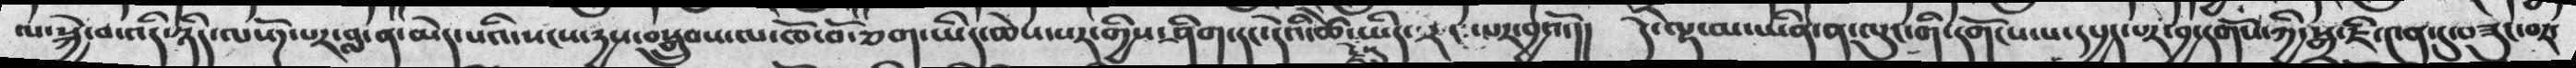ལ་སྐྱེ་བ་འདི་ཉིད་ལསོཌ་པར་བླ་ན་མེད་པའི་སངས་དྱས་བསྒྲུབས་ལ་ཁོ་བོ་ཅག་ཡིད་ཆེས་པར་གྱིས་ཤིག་དང་དེའི་ཚེ་རྗེསུ་ཡིད་རང་པར་བྱའོ་།།   དེ་ལྟ་མ་ཡིན་ན་ལུང་གི་དདགོངས་པ་དཔྱད་པར་བྱ་དགོས་ཀྱི་སྒྲ་ཇི་༩ན་དུ་བཟུང་བར་
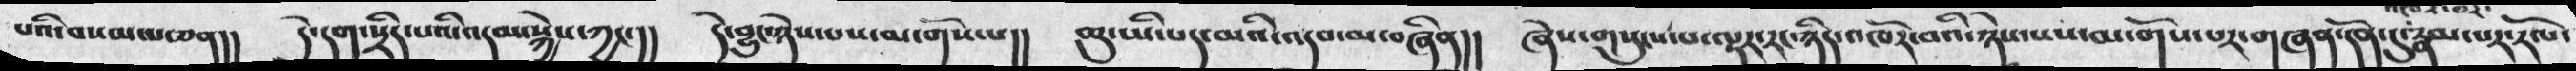པའི་བསམ་ཅན།།   དེ་དག་སྲིད་པའི་འདམ་སྐྱེས་ཀྱང་།།   དེ་བྱུང་ཉེས་པས་མ་གོས་པ།།   ཆུ་ཡི་པད་མའི་འདབ་མ་བཞིན།།  ཞེས་གསུངས་པ་ལྟར་རང་ཉིད་འཁོར་བའི་ཉེས་པས་མ་གོས་པར་གཞན་དོན་དུ་རྣམ་པར་རོལ་
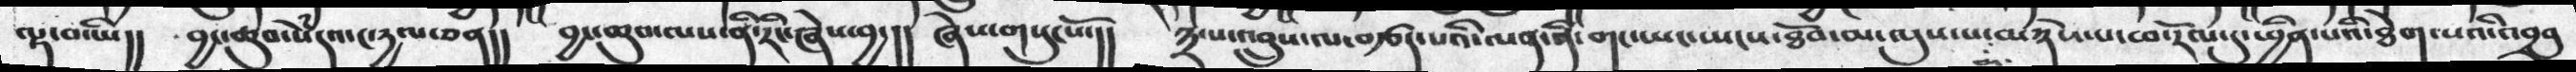ལྟ་བ་ཡི།།   བྱང་ཆུབ་སེཾདའ་ང་དྱལ་ཅན།།  བྱང་ཆུབ་ལས་ནི་རིང་ཞེས་བྱ་།།   ཞེས་གསུངསོ་།།  ༣པ་འབྲུས་ལ་བརྩད་པའི་ལན་ནི་གང་ཡང་སྤངས་ཐོབ་མ་ལུས་པ་མ་ཉེས་པ་ཕ་རོལ་དུ་ཕྱིན་པའི་ཐེག་པའི་འབྲབུ
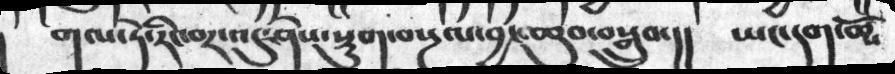གལ་ཏེ་རིང་བར་འདུ་ཤེས་སྡུག་བསྔལ་བྱང་ཆུབ་བསྒྲུབ་།།   ཡང་དག་ཆོས་
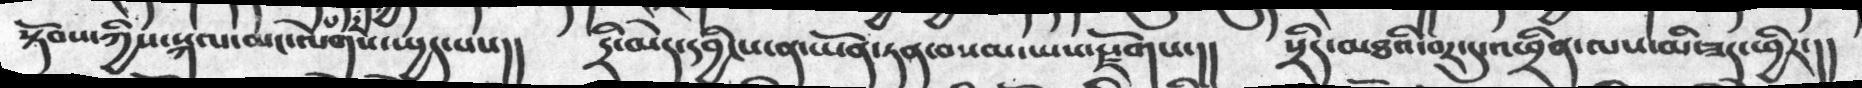སྟོབས་ཀྱིས་སྐལ་མང་ལེགས་སྤྱད་པས།།  དྲི་མེད་དབྱིངས་ན་ཡིན་རན་བསམ་ཡས་རྫོགས་།།  སྲིད་མཐའི་བར་དུ་འཕྲིན་ལས་མི་ཟད་ཕྱིར་།།
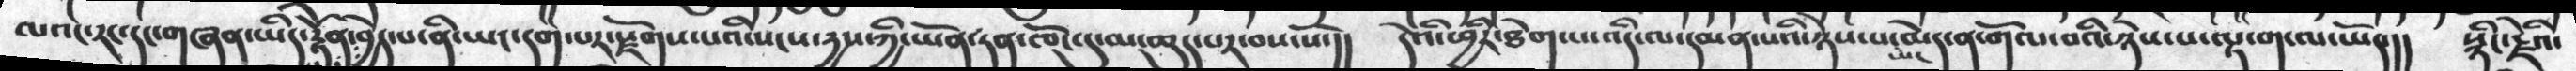ལའང་རང་གཞན་ཡིད་རྟོན་བྱེད་པ་ནི་ཡང་དག་པར་རྫོགས་པའི་སངས་རྱས་ཀྱི་ཡོན་རན་ཁོང་དུ་མ་ཆུད་པར་བས་སོ་།།  དེའི་ཕྱིར་ཐེག་པ་འདི་ལ་དམན་པའི་ཉེས་པ་ཡང་མེད་ན་གོལ་བའི་ཉེས་པ་ལྟ་གང་ལ་ཡོད་།།  སྙིང་རྗེའི་
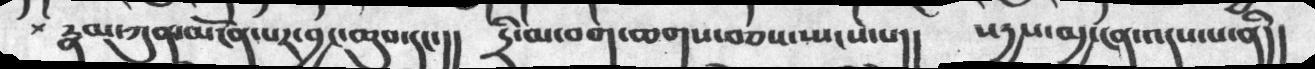+ རྣམ་ཀུན་མངོན་པར་བྱང་ཆུབ་དང་།།     དྲི་མ་བག་ཆགས་བཅས་སྤངས་པ།།   སདྱས་མྱ་ངན་འདས་པ་ནི།།
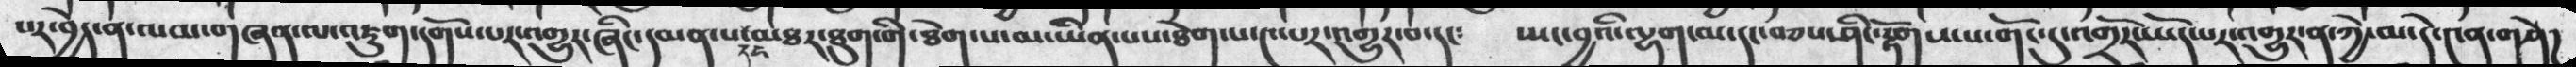པར་བྱེད་ན་ལམ་གཞན་ལ་འཇུག་དགོས་པར་འགྱུར་ཞིང་དམན་པ་དང་མཐར་ཐུག་གི་ཐེག་པ་མ་ཡིན་པས་ཐེག་པ་༤་པར་འགྱུར་བ་དང༴  ཡང་བྱའི་ལྷག་མ་དང་བཅས་ཤིང་རྟོགས་པ་གོང་དུ་འགྲོར་ཡོད་པར་འགྱུར་ན་ཀྱེ་མ་དེ་༤ན་གཤེད
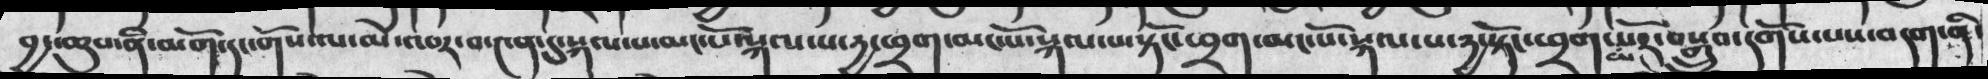བྱང་ཆུབ་ནི་མགོ་དང་གོས་ལ་མེ་འབར་བ་༤ན་དུ་སྐལ་པ་མང་པོ་སྐལ་པ་དྱ་ཕྲག་མང་པོ་སྐལ་པ་སྟོང་ཕྲག་མང་པོར་བསྒྲུབ་དགོས་པས་བདག་ནི་
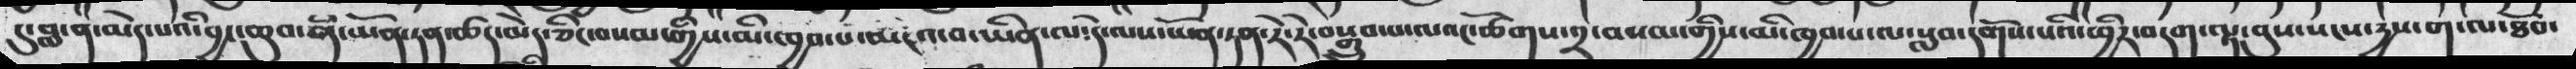དུ་བླ་ན་མེད་པའི་བྱང་ཆུབ་ནི་ཡོན་ཏན་ཚད་མེད་ཅིང་བསམ་གྱིས་མི་ཁྱབ་པ་མངའ་བ་ཡིན་ལ༴དེ་ལས་ཡོན་ཏན་རེ་རེ་བསྒྲུབ་པ་ལའང་ཚོགས་༢་བསམ་གྱིས་མིཁྱབ་པ་ལ་སླབ་དགོས་པའི་ཕྱིར་བདག་ལྟ་བུས་སངས་རྱས་ག་ལ་ཐོབ་
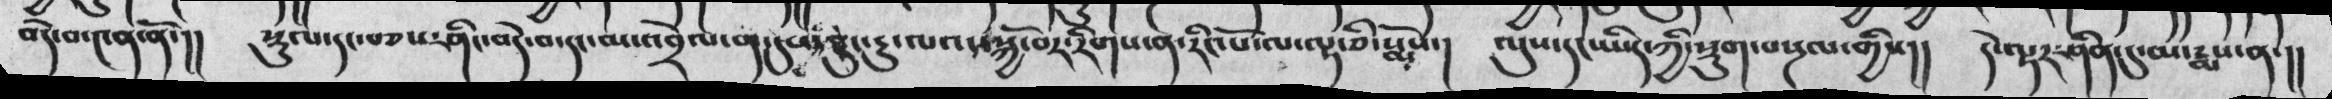བདེ་བ་༤ན་ནོ་།།   སྡུལ་དང་བཅས་ཤིང་བདེ་བ་དང་མ་འབྲེལ་ན་དུས་ཐུང་ངུ་ལའང་སྐྱ་བོར་རིགས་ན་རིང་པོ་ལ་ལྟ་ཅི་སྨོས་།   ལུས་དང་ཡིད་ཀྱི་སྡུག་བསྔལ་གྱིས།།  དེ་ལྟར་ཤིན་དུ་མ་རྨས་ན་།།
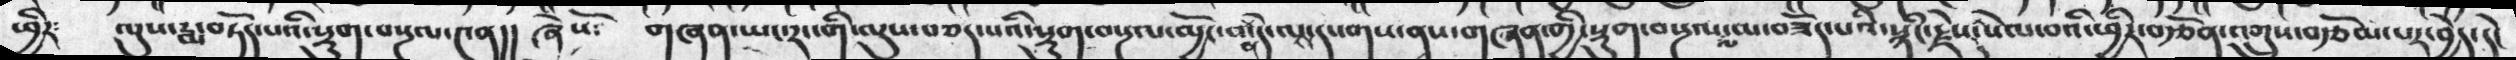ཕྱིར་    ལུས་རྨབཏོད་པའི་སྡུག་བསྔལ་༤ན།།  ཞེསོ༴   གཞན་ཡང་རང་གི་ལུས་བཅད་པའི་སྡུག་བསྔལ་མྱོང་པ་ན་དེ་ལ་དཔགས་ནས་གཞན་གྱི་སྡུག་བསྔལ་ལ་མ་བཟོད་པའི་སྙིང་རྗེས་སེལ་བའི་ཕྱིར་བརྩོན་འགྲུས་བརྩོམ་པར་བྱེད་དེ་
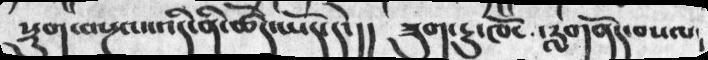སྡུག་བསྔལ་འདི་ནི་ཚོད་ཡོད་དེ་།།   ཟུག་ངུ་ཁོབ་རླགནོད་བསལ་
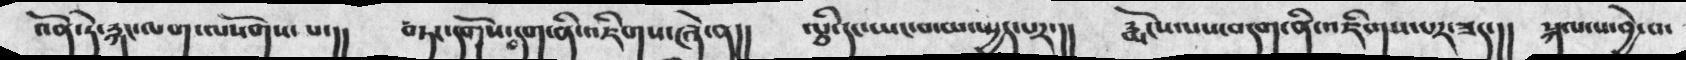འོན་ཏེ་རྐང་ལག་ལསོགས་པ་།།   བཏང་དགོས་བདག་ནི་འཇིགས་ཞེ་ན།།  ལྕི་དང་ཡང་བ་ལ་ཡྱད་པར་།།   རྨོངས་ལས་བདག་ནི་འཇིགས་པར་ཟད་།།  སྐལ་པ་བྱེ་བ་
